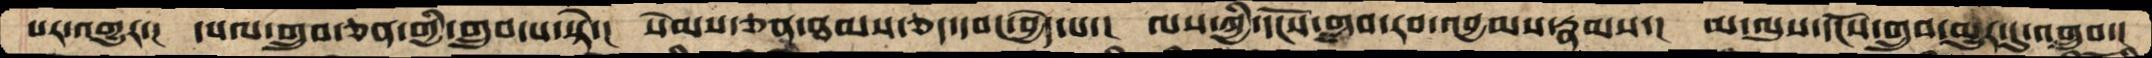པར་འགྱུར་།  དཔལ་གྲུབ་ཅན་གྱི་གྲུབ་པ་སྟེ་།  སེམས་ཅན་ཐམས་ཅད་དབང་བྱེད་པ་།  ལས་ཀྱི་དངོས་གྲུབ་རབ་འབྱམས་རྣམས་།  མ་ལུས་དངོས་གྲུབ་མྱུར་དུ་འགྲུབ་།
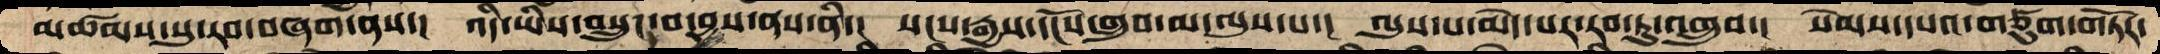མཚམས་སུ་རབ་བཞག་ནས་།  འདི་ཡིས་བསྲུང་བ་བྱས་ནས་ནི་།  སངས་རྒྱས་དངོས་གྲུབ་མ་ལུས་པ་།  ལུས་པ་མེད་པར་རབ་ཏུ་འགྲུབ་།  སེམས་དཔའ་གཙུག་གཏོར་
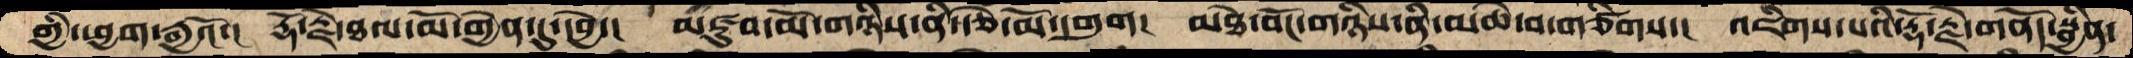གྱི་ཕྱག་རྒྱའོ་།  རྡོ་རྗེ་ཐལ་མོ་གྱེན་དུ་དབྱེ་།  མཛུབ་མོ་གཉིས་ནི་རྩེ་མོ་དགུག།  མཐེ་བོང་གཉིས་ནི་མཆེ་བ་གཙིགས་།  འཇིགས་པའི་རྡོ་རྗེ་གནོད་སྦྱིན་
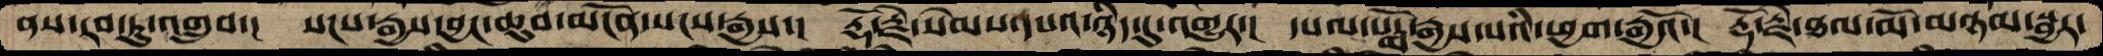ནས་རབ་ཏུ་འགྲུབ་།  སངས་རྒྱས་བྱང་ཆུབ་མངོན་སངས་རྒྱས་།  རྡོ་རྗེ་སེམས་དཔའ་ཉིད་དུ་འགྱུར་།  དཔལ་པདྨོ་རྒྱས་པའི་ཕྱག་རྒྱའོ་།  རྡོ་རྗེ་ཐལ་མོ་མཉམ་སྦྱར་
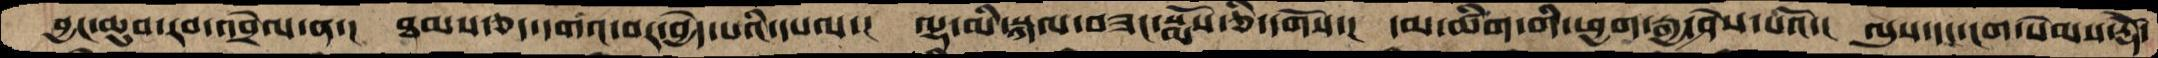བྱང་ཆུབ་རབ་འབྲེལ་ན་།  ཐམས་ཅད་དགའ་བར་བྱེད་པའི་དཔལ་།  ལྷ་མི་སྐལ་བཟང་སྨོས་ཅི་དགོས་།  དམ་ཚིག་གི་ཕྱག་རྒྱ་ཤེས་པའོ་།  ལུས་དང་ངག་སེམས་རྡོེ་
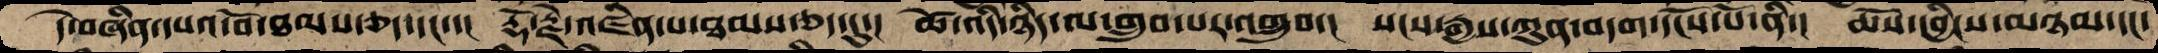དེ་བཞིན་དཔའ་བོ་ཐམས་ཅད་དང་་།  རྡོ་རྗེ་འཛིན་པ་ཐམས་ཅད་དུ་།  ཚེ་འདི་ཉིད་ལ་གྲུབ་པར་འགྲུབ་།  སངས་རྒྱས་ཀུན་བདག་དངོས་པོ་ནི་།  ཆོས་དབྱིངས་མཉམ་དང་
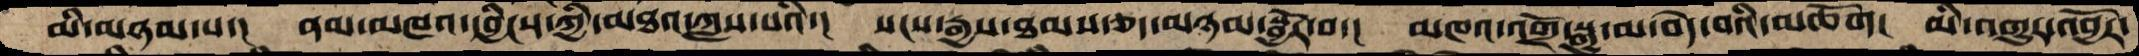མི་མཉམ་པ་།  ནམ་མཁའ་དབྱིངས་ཀྱི་མཐའ་ཀླས་པའི་།  སངས་རྒྱས་ཐམས་ཅད་མཉམ་སྦྱོར་བ་།  མཁའ་འགྲོ་སྒྱུ་མ་བདེ་བའི་མཆོག།  མི་འགྱུར་འབྱོར་
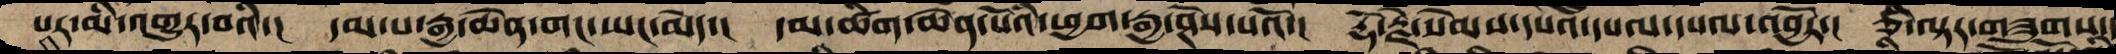པར་མི་འགྱུར་བའི་།  དམ་པ་རྒྱ་ཆེན་གང་ཡང་མེད་།  དམ་ཚིག་ཆེན་པོའི་ཕྱག་རྒྱ་ཤེས་པའོ་།  རྡོ་རྗེ་སེམས་དཔའ་དཔལ་དཔལ་འབྱོར་།  ཅི་ལྟར་གཟུགས་
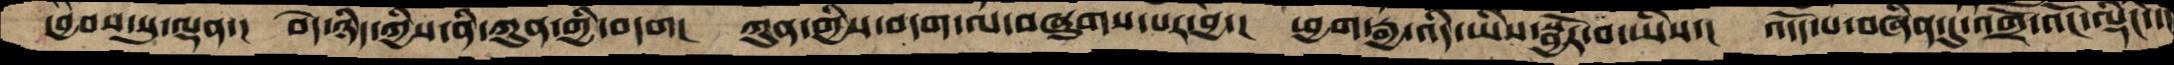དབྱིབས་སུ་ལྡན་།  བདེ་ཉིད་ཀྱིས་ནི་ཀུན་གྱི་བདག།  ཀུན་གྱིས་བདག་ལ་བཞུགས་པར་བྱ་།  ཕྱག་རྒྱ་འདི་ཡིས་སྦྱོར་བ་ཡིས་།  འདོད་པ་བཞིན་དུ་འགྲོ་འོང་ལྡིང་་།
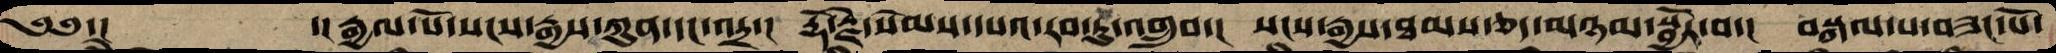༄༅་།     ་།རྒྱལ་པོ་སངས་རྒྱས་ཀུན་དང་འདྲ་།  རྡོ་རྗེ་སེམས་དཔའ་རབ་ཏུ་འགྲུབ་།  སངས་རྒྱས་ཐམས་ཅད་མཉམ་སྦྱོར་བ་།  བསྐལ་པ་བཟང་པོ་
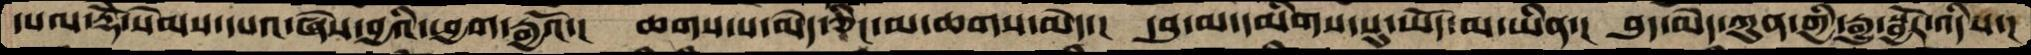དཔལ་རྡོེ་སེམས་དཔའ་ཞེས་བྱའི་ཕྱག་རྒྱའོ་།  ཆགས་པ་མེད་ཅིང་མ་ཆགས་མེད་།  དབུ་མ་དམིགས་སུ་ཡོད་མ་ཡིན་།  བུད་མེད་ཀུན་གྱི་རྒྱུ་སྦྱོར་འདིས་།
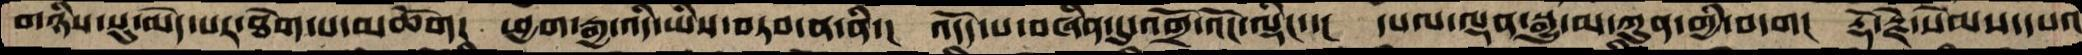གཉིས་སུ་མེེད་པར་ཐེག་པ་མཆོག།  ཕྱག་རྒྱ་འདི་ཡིས་བཏབ་ན་ནི་།  འདོད་པ་བཞིན་དུ་འགྲོ་འོང་ལྡིང་་།  དཔལ་ལྡན་སྒྱུ་མ་ཀུན་གྱི་བདག།   རྡོ་རྗེ་སེམས་དཔའ
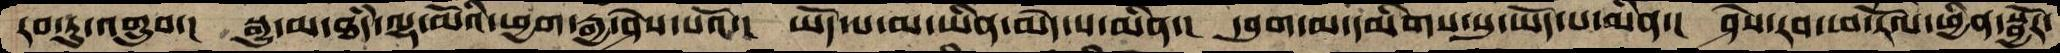རབ་ཏུ་འགྲུབ་།  སྒྱུ་མ་ཐཾད་ལྷ་མོའི་ཕྱག་རྒྱ་ཤེས་པའོ་།  ཡོད་པ་མ་ཡིན་མེད་པ་མིན་།  དབུག་མ་དམིགས་སུ་ཡོད་པ་མིན་།  ཤེས་རབ་ཕ་རོལ་ཕྱིན་སྦྱོར་
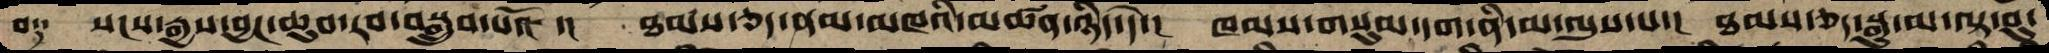བ༑  སངས་རྒྱས་བྱང་ཆུབ་རབ་བསྒྲུབ་པའོ་།  ཐམས་ཅད་ནམ་མཁའི་མཚན་ཉིད་དེ་།  ཁམས་གསུམ་དག་ནི་མ་ལུས་པ་།  ཐམས་ཅད་སྒྱུ་མ་ལྟ་བུ་
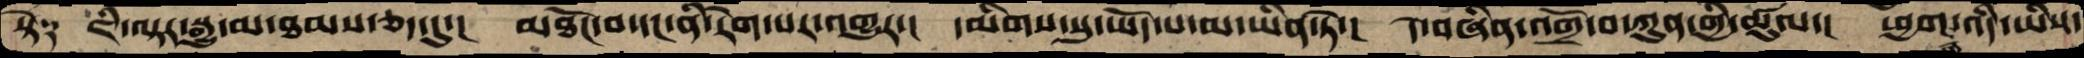སྟེ༑  ཇི་ལྟར་སྒྱུ་མ་ཐམས་ཅད་དུ་།  མཐོང་བ་དང་ནི་རིག་པར་འགྱུར་།  དམིགས་སུ་ཡོད་པ་མ་ཡིན་ཏེ་།  དེ་བཞིན་འགྲོ་བ་ཀུན་གྱི་ཚུལ་།  ཕྱག་འདི་ཡིས་
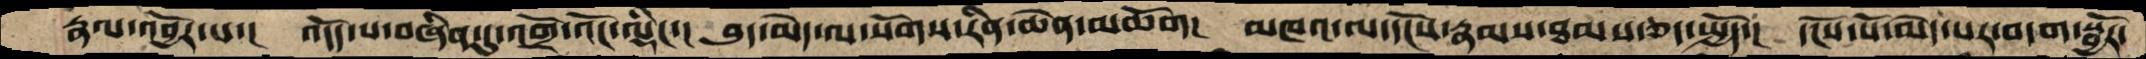རྣལ་འབྱོར་པ་།  འདོད་པ་བཞིན་དུ་འགྲོ་འོང་ལྡིང་།  བུད་མེད་ལ་སོགས་རིན་ཆེན་མཆོག།  མཁའ་ལ་དངོས་རྣམས་ཐམས་ཅད་སྤྱོད་།  དངོས་པོ་མེད་པར་བདག་སྦྱོར་
